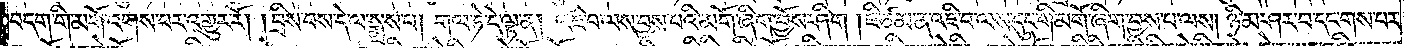བདག་གི་མགོ་འགས་པར་འགྱུར་རོ། །བྲིས་པས་དེ་ལ་སྨྲས་པ། གལ་ཏེ་དེ་ལྟ་ན། འཇི་བ་ལས་བྱས་པའི་མགོ་ཞིག་བྱོས་ཤིག །ཇི་ཙམ་ན་འཇི་བ་ལས་དུང་གི་མགོ་ཞིག་བྱས་པ་ལས། ཉི་མ་ཤར་བ་དང་གས་པར་
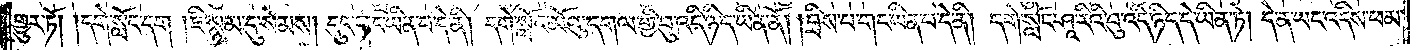གྱུར་ཏོ། །དགེ་སློང་དག །ཇི་སྙམ་དུ་སེམས། དུང་གང་ཡིན་པ་དེ་ནི། དགེ་སློང་མོའུ་དགལ་གྱི་བུ་འདི་ཉིད་ཡིན་ནོ། །བྲིས་པ་གང་ཡིན་པ་དེ་ནི། དགེ་སློང་ཤཱ་རིའི་བུ་འདི་ཉིད་དེ་ཡིན་ཏེ། དེ་ན་ཡང་འདིས་ཕམ་
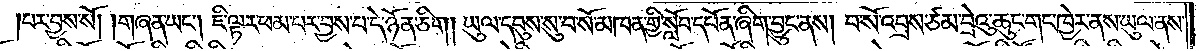པར་བྱས་སོ། །གཞན་ཡང༌། ཇི་ལྟར་ཕམ་པར་བྱས་པ་དེ་ཉོན་ཅིག །ཡུལ་དབུས་སུ་བསོ་མཁན་གྱི་སློབ་དཔོན་ཞིག་བྱུང་ནས། བ་སོ་འབྲས་ཙམ་བྲེའུ་ཆུང་གང་ཁྱེར་ནས་ཡུལ་ནས་
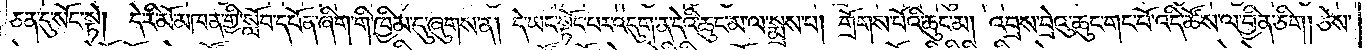ཅན་དུ་སོང་སྟེ། དེ་རི་མོ་མཁན་གྱི་སློབ་དཔོན་ཞིག་གི་ཁྱིམ་དུ་ཞུགས་ན། དེ་ཡང་སྟོང་པར་འདུག་ན་དེའི་ཆུང་མ་ལ་སྨྲས་པ། གྲོགས་པོའི་ཆུང་མ། འབྲས་བྲེའུ་ཆུང་གང་པོ་འདི་ཚོས་ལ་བྱིན་ཅིག། ཅེས་
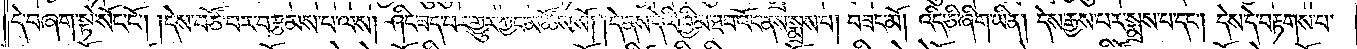དེ་བཞག་སྟེ་སོང་ངོ༌། །དེས་བཙོ་བར་བརྩམས་པ་ལས། ཤིང་ཟད་པར་གྱུར་ཀྱང་མ་ཚོས་སོ། །དེ་ནས་དེའི་ཁྱིམ་ཐབ་འོང་ནས་སྨྲས་པ། བཟང་མོ། འདི་ཅི་ཞིག་ཡིན། དེས་རྒྱས་པར་སྨྲས་པ་དང༌། དེས་དེ་བརྟགས་པ་
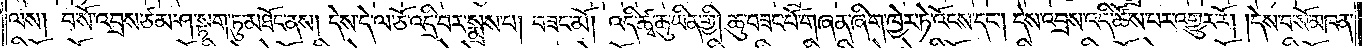ལས། བ་སོ་འབྲས་ཙམ་ཤ་སྟག་ཏུ་མཐོང་ནས། དེས་དེ་ལ་ཅོ་འདྲི་བར་སྨྲས་པ། བཟང་མོ། འདི་ཚྭ་ཆུ་ཡིན་གྱི། ཆུ་བཟང་པོ་གཞན་ཞིག་ཁྱེར་ཏེ་འོངས་དང༌། དེས་འབྲས་འདི་ཚོས་པར་འགྱུར་རོ། །དེས་བ་སོ་མཁན་
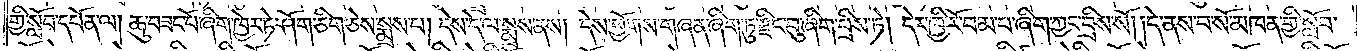གྱི་སློབ་དཔོན་ལ། ཆུ་བཟང་པོ་ཞིག་ཁྱེར་ཏེ་ཤོག་ཅིག་ཅེས་སྨྲས་པ། དེས་དེ་ལ་སྨྲས་ནས། དེས་ཕྱོགས་གཞན་ཞིག་ཏུ་རྫིང་བུ་ཞིག་བྲིས་ཏེ། དེར་ཁྱི་རོ་བམ་བ་ཞིག་ཀྱང་བྲིས་སོ། །དེ་ནས་བ་སོ་མཁན་གྱི་སློབ་
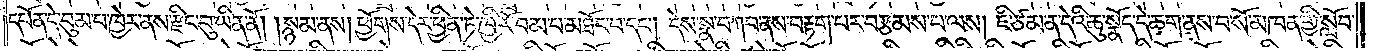དཔོན་དེ་བུམ་པ་ཁྱེར་ནས་རྫིང་བུ་ཡིན་ནོ། །སྙམ་ནས། ཕྱོགས་དེར་ཕྱིན་ཏེ་ཁྱི་རོ་བམ་པ་མཐོང་བ་དང༌། དེས་སྣ་བཀབ་ནས་བརྟག་པར་བརྩམས་པ་ལས། ཇི་ཙམ་ན་དེའི་ཆུ་སྣོད་དེ་ཆག་ནས་བ་སོ་མཁན་གྱི་སློབ་
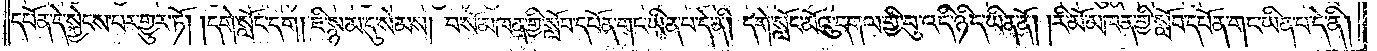དཔོན་དེ་སྐྱེངས་པར་གྱུར་ཏོ། །དགེ་སློང་དག །ཇི་སྙམ་དུ་སེམས། བ་སོ་མཁན་གྱི་སློབ་དཔོན་གང་ཡིན་པ་དེ་ནི། དགེ་སློང་མོའུ་དགལ་གྱི་བུ་འདི་ཉིད་ཡིན་ནོ། །རི་མོ་མཁན་གྱི་སློབ་དཔོན་གང་ཡིན་པ་དེ་ནི།
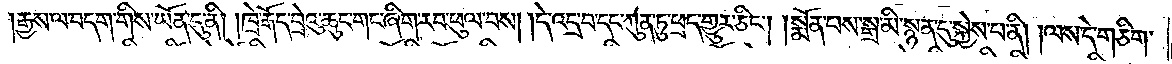རྒྱས་ལ་བདག་གིས་ཡོན་དུ་ནི། །ཁྲེ་རྒོད་བྲེའུ་ཆུང་གང་ཞིག་རབ་ཕུལ་བས། །དེ་འདྲ་བ་དང་ཀུན་ཏུ་ཕྲད་གྱུར་ཅིང༌། །སྨོན་པས་སྒྲ་མི་སྙན་དུ་སྐྱེས་པ་ནི། །ལས་དེ་གཅིག
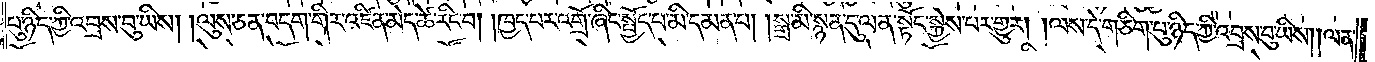པུ་ཉིད་ཀྱི་འབྲས་བུ་ཡིས། །ལུས་ཅན་བདག་གིར་འཛིན་མེད་ཚེ་རིང་བ། །ཁྱད་པར་འགྲོ་ཞིང་སྤྱོད་པ་མི་དམན་པ། །སྒྲ་མི་སྙན་དུ་ལན་སྟོང་སྐྱེས་པར་གྱུར། །ལས་དེ་གཅིག་པུ་ཉིད་ཀྱི་འབྲས་བུ་ཡིས། །ལན་
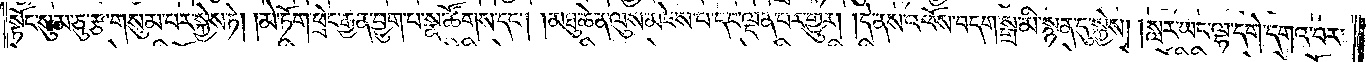སྟོང་སུམ་ཅུ་རྩ་གསུམ་པར་སྐྱེས་ཏེ། མེ་ཏོག་ཕྲེང་རྒྱན་བྱུག་པ་སྣ་ཚོགས་དང༌། །མཐུ་ཆེན་ལུས་མཛེས་པ་དང་ལྡན་པར་གྱུར། །དེ་ནས་འཕོས་བདག་སྒྲ་མི་སྙན་དུ་སྐྱེས། །སླར་ཡང་ལྷ་དགེ་དགའ་བར་
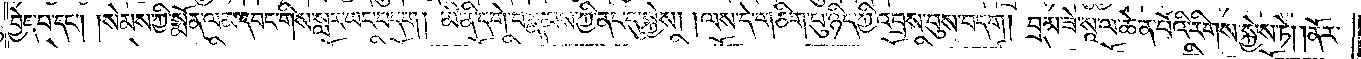བྱེད་པ་དང༌། །སེམས་ཀྱི་སྨོན་ལམ་དབང་གིས་སླར་ཡང་བདག། མི་ནི་དགེ་བ་རྣམས་ཀྱི་ནང་དུ་སྐྱེས། །ལས་དེ་གཅིག་པུ་ཉིད་ཀྱི་འབྲས་བུས་བདག། བྲམ་ཟེ་སཱ་ལ་ཆེན་པོའི་རིགས་སྐྱེས་ཏེ། །ནོར་
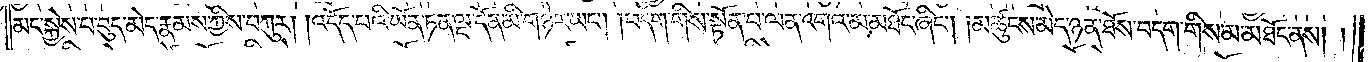མང་སྐྱེས་པ་བུད་མེད་རྣམས་ཀྱིས་བཀུར། །འདོད་པའི་ཡོན་ཏན་ལྔ་དོན་མི་གཉེར་ཡང༌། །བདག་གིས་སྟོན་པ་ལན་འགའ་མ་མཐོང་ཞིང༌། །མཚུངས་མེད་ཉན་ཐོས་བདག་གིས་མ་མཐོང་ནས། །
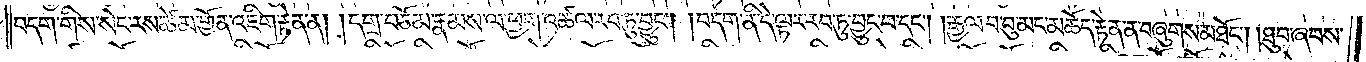བདག་གིས་སེང་རས་ཚེམ་གྱོན་འཇིག་རྟེན་ན། །དགྲ་བཅོམ་རྣམས་ལ་ཕྱག་འཚལ་རབ་ཏུ་བྱུང༌། །བདག་ནི་དེ་ལྟར་རབ་ཏུ་བྱུང་བ་དང༌། །རྒྱལ་བ་བུ་མང་མཆོད་རྟེན་ན་བཞུགས་མཐོང༌། །ཐུབ་ཞབས་
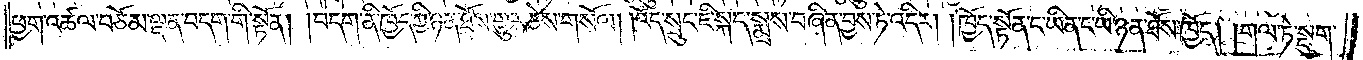ཕྱག་འཚལ་བཅོམ་ལྡན་བདག་གི་སྟོན། །བདག་ནི་ཁྱོད་ཀྱི་ཉན་ཐོས་གྱུར་ཅེས་གསོལ། །འོད་སྲུང་ཇི་སྐད་སྨྲས་བཞིན་བྱས་ཏེ་འདིར། །ཁྱོད་སྟོན་ང་ཡིན་ང་ཡི་ཉན་ཐོས་ཁྱོད། །གལ་ཏེ་སྡུག་
